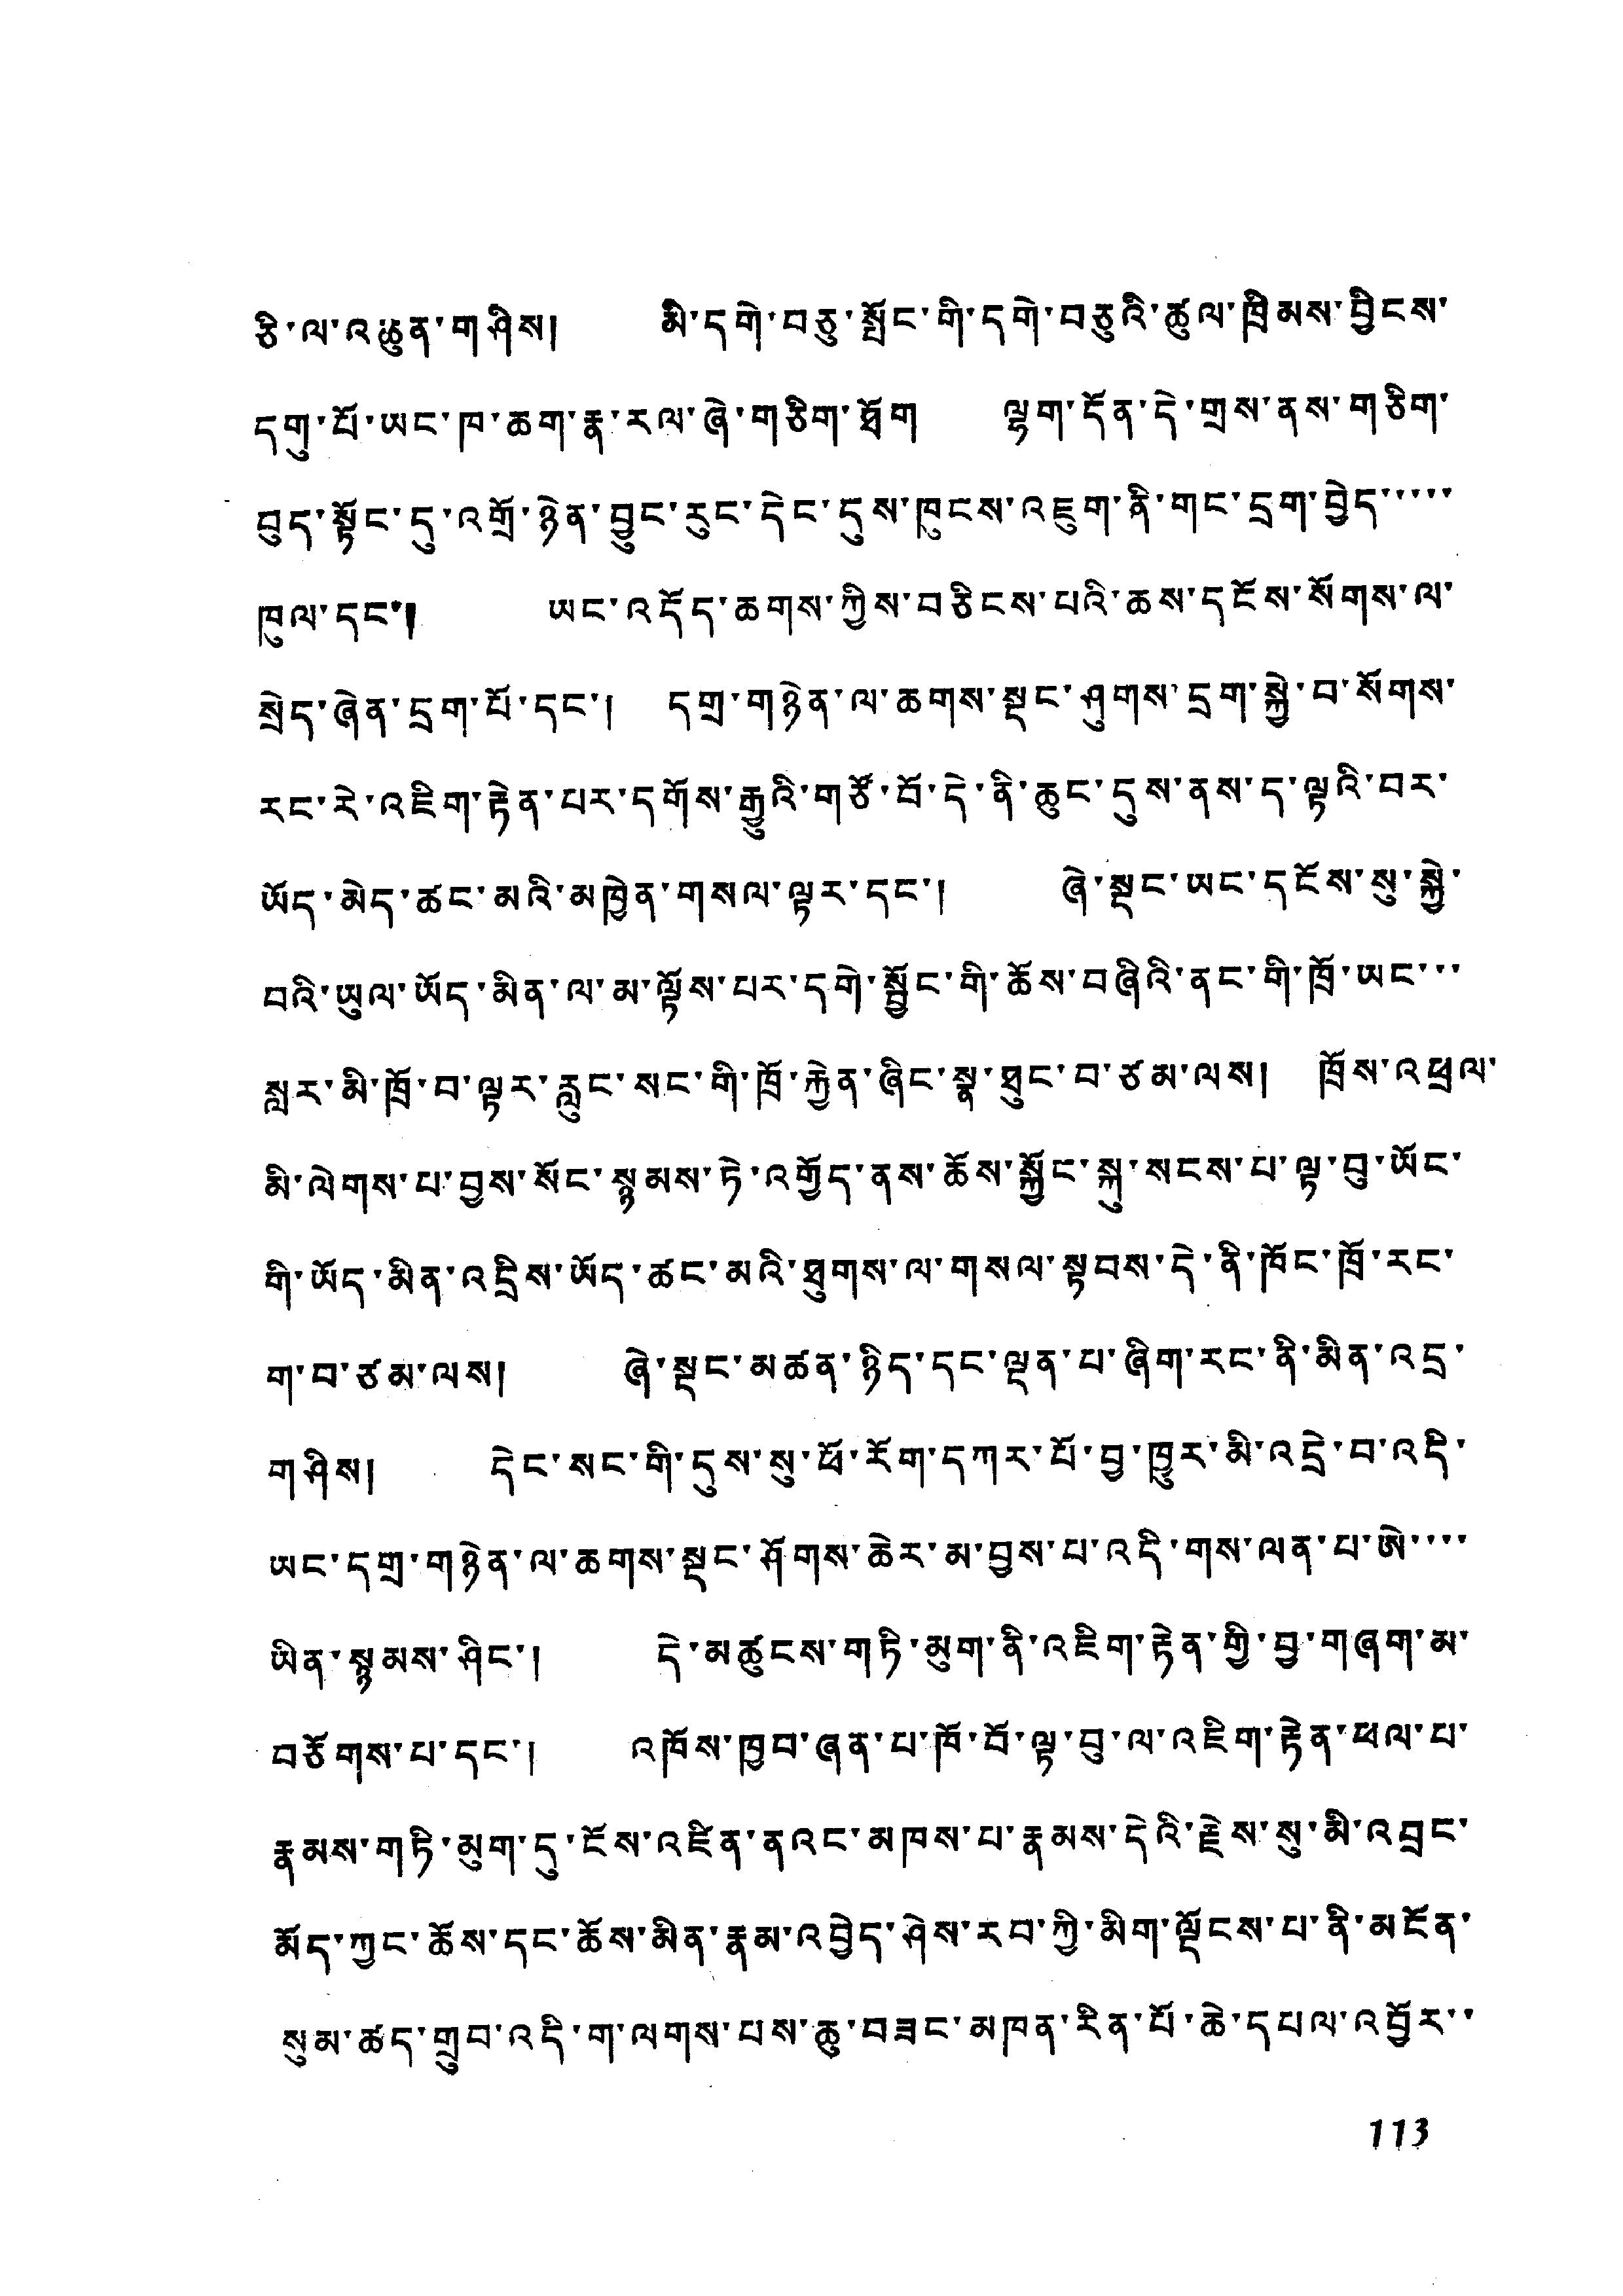ཅི་ལ་འཆུན་གཤིས། མི་དགེ་བཅུ་སྤོང་གི་དགེ་བཅུའི་ཚུལ་ཁྲིམས་བྱིངས་
དགུ་པོ་ཡང་ཁ་ཆག་རྣ་རལ་ཞེ་གཅིག་ཐོག ལྷག་དོན་དེ་གྲས་ནས་གཅིག་
བུད་སྟོང་དུ་འགྲོ་ཉེན་བྱུང་རུང་དེང་དུས་ཁུངས་འཇུག་ནི་གང་དྲག་བྱེད་་་་་
ཁུལ་དང་། ཡང་འདོད་ཆགས་ཀྱིས་བཅིངས་པའི་ཆས་དངོས་སོགས་ལ་
སྲེད་ཞེན་དྲག་པོ་དང་། དགྲ་གཉེན་ལ་ཆགས་སྡང་ཤུགས་དྲག་སྐྱེ་བ་སོགས་
རང་རེ་འཇིག་རྟེན་པར་དགོས་རྒྱུའི་གཙོ་བོ་དེ་ནི་ཆུང་དུས་ནས་ད་ལྟའི་བར་
ཡོད་མེད་ཚང་མའི་མཁྱེན་གསལ་ལྟར་དང་། ཞེ་སྡང་ཡང་དངོས་སུ་སྐྱེ་
བའི་ཡུལ་ཡོད་མིན་ལ་མ་ལྟོས་པར་དགེ་སྦྱོང་གི་ཆོས་བཞིའི་ནང་གི་ཁྲོ་ཡང་་་
སླར་མི་ཁྲོ་བ་ལྟར་རླུང་སང་གི་ཁྲོ་རྐྱེན་ཞིང་སྣ་ཐུང་བ་ཙམ་ལས། ཁྲོས་འཕྲལ་
མི་ལེགས་པ་བྱས་སོང་སྙམས་ཏེ་འགྱོད་ནས་ཆོས་སྐྱོང་སྐུ་སངས་པ་ལྟ་བུ་ཡོང་
གི་ཡོད་མིན་འདྲིས་ཡོད་ཚང་མའི་ཐུགས་ལ་གསལ་སྟབས་དེ་ནི་ཁོང་ཁྲོ་རང་
ག་བ་ཙམ་ལས། ཞེ་སྡང་མཚན་ཉིད་དང་ལྡན་པ་ཞིག་རང་ནི་མིན་འདྲ་
གཤིས། དེང་སང་གི་དུས་སུ་ཕོ་རོག་དཀར་པོ་བྱ་ཁྱུར་མི་འདྲེ་བ་འདི་
ཡང་དགྲ་གཉེན་ལ་ཆགས་སྡང་ཤོགས་ཆེར་མ་བྱས་པ་འདི་གས་ལན་པ་ཨེ་་་་
ཡིན་སྙམས་ཤིང་། དེ་མཚུངས་གཏི་མུག་ནི་འཇིག་རྟེན་གྱི་བྱ་གཞག་མ་
བཙོགས་པ་དང་། འཁོས་ཁྱབ་ཞན་པ་ཁོ་བོ་ལྟ་བུ་ལ་འཇིག་རྟེན་ཕལ་པ་
རྣམས་གཏི་མུག་དུ་ངོས་འཛིན་ནའང་མཁས་པ་རྣམས་དེའི་རྗེས་སུ་མི་འབྲང་
མོད་ཀྱང་ཆོས་དང་ཆོས་མིན་རྣམ་འབྱེད་ཤེས་རབ་ཀྱི་མིག་ལྡོངས་པ་ནི་མངོན་
སུམ་ཚད་གྲུབ་འདི་ག་ལགས་པས་ཆུ་བཟང་མཁན་རིན་པོ་ཆེ་དཔལ་འབྱོར་
113
